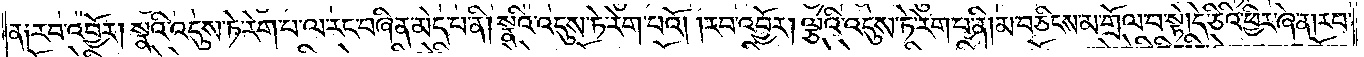ན༑ རབ་འབྱོར། སྣའི་འདུས་ཏེ་རེག་པ་ལ་རང་བཞིན་མེད་པ་ནི། སྣའི་འདུས་ཏེ་རེག་པའོ། །རབ་འབྱོར། ལྕེའི་འདུས་ཏེ་རེག་པ་ནི། མ་བཅིངས་མ་གྲོལ་བ་སྟེ། དེ་ཅིའི་ཕྱིར་ཞེ་ན། རབ་
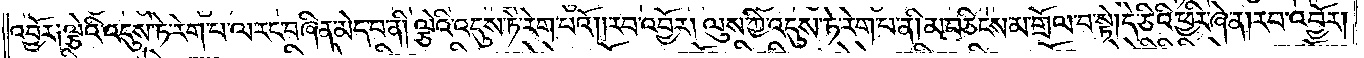འབྱོར༑ ལྕེའི་འདུས་ཏེ་རེག་པ་ལ་རང་བཞིན་མེད་པ་ནི། ལྕེའི་འདུས་ཏེ་རེག་པའོ། །རབ་འབྱོར། ལུས་ཀྱི་འདུས་ཏེ་རེག་པ་ནི། མ་བཅིངས་མ་གྲོལ་བ་སྟེ། དེ་ཅིའི་ཕྱིར་ཞེ་ན། རབ་འབྱོར།
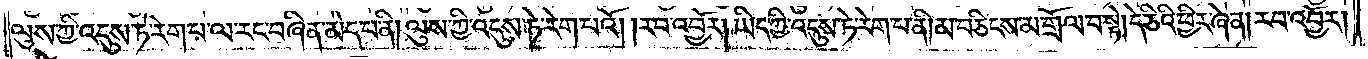ལུས་ཀྱི་འདུས་ཏེ་རེག་པ་ལ་རང་བཞིན་མེད་པ་ནི། ལུས་ཀྱི་འདུས་ཏེ་རེག་པའོ། །རབ་འབྱོར། ཡིད་ཀྱི་འདུས་ཏེ་རེག་པ་ནི། མ་བཅིངས་མ་གྲོལ་བ་སྟེ། དེ་ཅིའི་ཕྱིར་ཞེ་ན། རབ་འབྱོར།
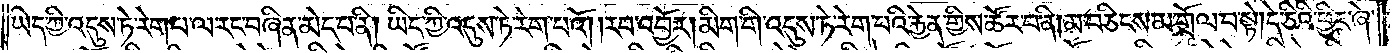ཡིད་ཀྱི་འདུས་ཏེ་རེག་པ་ལ་རང་བཞིན་མེད་པ་ནི། ཡིད་ཀྱི་འདུས་ཏེ་རེག་པའོ། །རབ་འབྱོར། མིག་གི་འདུས་ཏེ་རེག་པའི་རྐྱེན་གྱིས་ཚོར་བ་ནི། མ་བཅིངས་མ་གྲོལ་བ་སྟེ། དེ་ཅིའི་ཕྱིར་ཞེ་
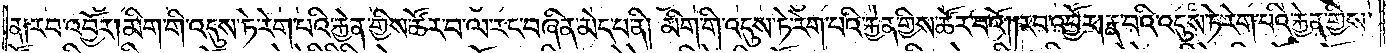ན༑ རབ་འབྱོར། མིག་གི་འདུས་ཏེ་རེག་པའི་རྐྱེན་གྱིས་ཚོར་བ་ལ་རང་བཞིན་མེད་པ་ནི། མིག་གི་འདུས་ཏེ་རེག་པའི་རྐྱེན་གྱིས་ཚོར་བའོ། །རབ་འབྱོར། རྣ་བའི་འདུས་ཏེ་རེག་པའི་རྐྱེན་གྱིས་
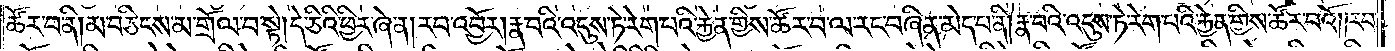ཚོར་བ་ནི། མ་བཅིངས་མ་གྲོལ་བ་སྟེ། དེ་ཅིའི་ཕྱིར་ཞེ་ན། རབ་འབྱོར། རྣ་བའི་འདུས་ཏེ་རེག་པའི་རྐྱེན་གྱིས་ཚོར་བ་ལ་རང་བཞིན་མེད་པ་ནི། རྣ་བའི་འདུས་ཏེ་རེག་པའི་རྐྱེན་གྱིས་ཚོར་བའོ། །རབ་
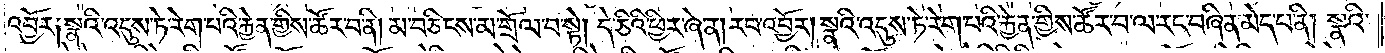འབྱོར༑ སྣའི་འདུས་ཏེ་རེག་པའི་རྐྱེན་གྱིས་ཚོར་བ་ནི། མ་བཅིངས་མ་གྲོལ་བ་སྟེ། དེ་ཅིའི་ཕྱིར་ཞེ་ན། རབ་འབྱོར། སྣའི་འདུས་ཏེ་རེག་པའི་རྐྱེན་གྱིས་ཚོར་བ་ལ་རང་བཞིན་མེད་པ་ནི། སྣའི་
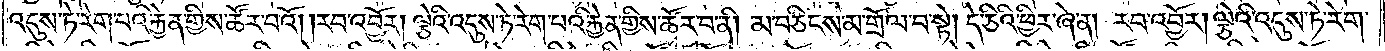འདུས་ཏེ་རེག་པའི་རྐྱེན་གྱིས་ཚོར་བའོ། །རབ་འབྱོར། ལྕེའི་འདུས་ཏེ་རེག་པའི་རྐྱེན་གྱིས་ཚོར་བ་ནི། མ་བཅིངས་མ་གྲོལ་བ་སྟེ། དེ་ཅིའི་ཕྱིར་ཞེ་ན། རབ་འབྱོར། ལྕེའི་འདུས་ཏེ་རེག་
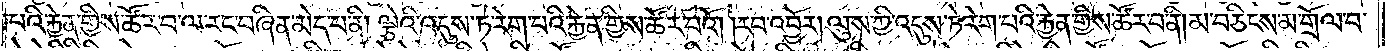པའི་རྐྱེན་གྱིས་ཚོར་བ་ལ་རང་བཞིན་མེད་པ་ནི། ལྕེའི་འདུས་ཏེ་རེག་པའི་རྐྱེན་གྱིས་ཚོར་བའོ། །རབ་འབྱོར། ལུས་ཀྱི་འདུས་ཏེ་རེག་པའི་རྐྱེན་གྱིས་ཚོར་བ་ནི། མ་བཅིངས་མ་གྲོལ་བ་
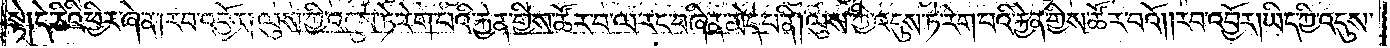སྟེ༑ དེ་ཅིའི་ཕྱིར་ཞེ་ན། རབ་འབྱོར། ལུས་ཀྱི་འདུས་ཏེ་རེག་པའི་རྐྱེན་གྱིས་ཚོར་བ་ལ་རང་བཞིན་མེད་པ་ནི། ལུས་ཀྱི་འདུས་ཏེ་རེག་པའི་རྐྱེན་གྱིས་ཚོར་བའོ། །རབ་འབྱོར། ཡིད་ཀྱི་འདུས་
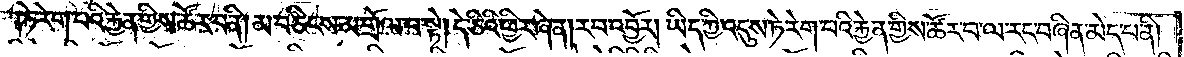ཏེ་རེག་པའི་རྐྱེན་གྱིས་ཚོར་བ་ནི། མ་བཅིངས་མ་གྲོལ་བ་སྟེ། དེ་ཅིའི་ཕྱིར་ཞེ་ན། རབ་འབྱོར། ཡིད་ཀྱི་འདུས་ཏེ་རེག་པའི་རྐྱེན་གྱིས་ཚོར་བ་ལ་རང་བཞིན་མེད་པ་ནི།
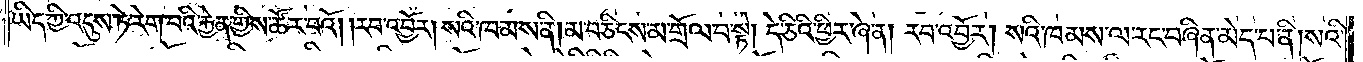ཡིད་ཀྱི་འདུས་ཏེ་རེག་པའི་རྐྱེན་གྱིས་ཚོར་བའོ། །རབ་འབྱོར། སའི་ཁམས་ནི། མ་བཅིངས་མ་གྲོལ་བ་སྟེ། དེ་ཅིའི་ཕྱིར་ཞེ་ན། རབ་འབྱོར། སའི་ཁམས་ལ་རང་བཞིན་མེད་པ་ནི། སའི་
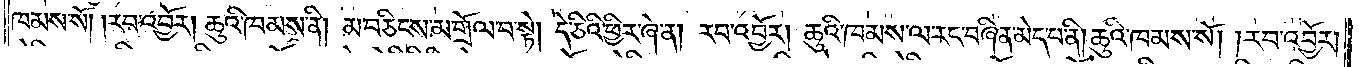ཁམས་སོ། །རབ་འབྱོར། ཆུའི་ཁམས་ནི། མ་བཅིངས་མ་གྲོལ་བ་སྟེ། དེ་ཅིའི་ཕྱིར་ཞེ་ན། རབ་འབྱོར། ཆུའི་ཁམས་ལ་རང་བཞིན་མེད་པ་ནི། ཆུའི་ཁམས་སོ། །རབ་འབྱོར།
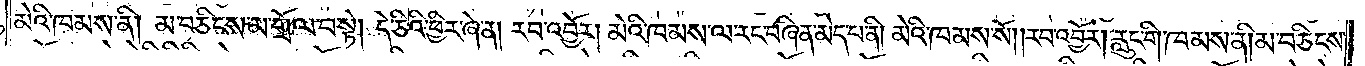མེའི་ཁམས་ནི། མ་བཅིངས་མ་གྲོལ་བ་སྟེ། དེ་ཅིའི་ཕྱིར་ཞེ་ན། རབ་འབྱོར། མེའི་ཁམས་ལ་རང་བཞིན་མེད་པ་ནི། མེའི་ཁམས་སོ། །རབ་འབྱོར། རླུང་གི་ཁམས་ནི། མ་བཅིངས་
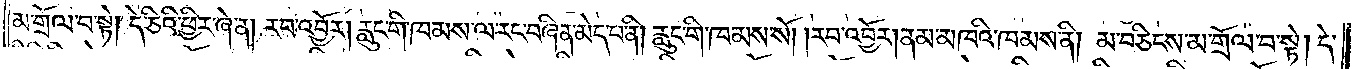མ་གྲོལ་བ་སྟེ། དེ་ཅིའི་ཕྱིར་ཞེ་ན། རབ་འབྱོར། རླུང་གི་ཁམས་ལ་རང་བཞིན་མེད་པ་ནི། རླུང་གི་ཁམས་སོ། །རབ་འབྱོར། ནམ་མཁའི་ཁམས་ནི། མ་བཅིངས་མ་གྲོལ་བ་སྟེ། དེ་
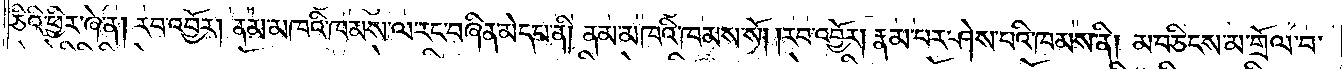ཅིའི་ཕྱིར་ཞེ་ན། རབ་འབྱོར། ནམ་མཁའི་ཁམས་ལ་རང་བཞིན་མེད་པ་ནི། ནམ་མཁའི་ཁམས་སོ། །རབ་འབྱོར། རྣམ་པར་ཤེས་པའི་ཁམས་ནི། མ་བཅིངས་མ་གྲོལ་བ་
